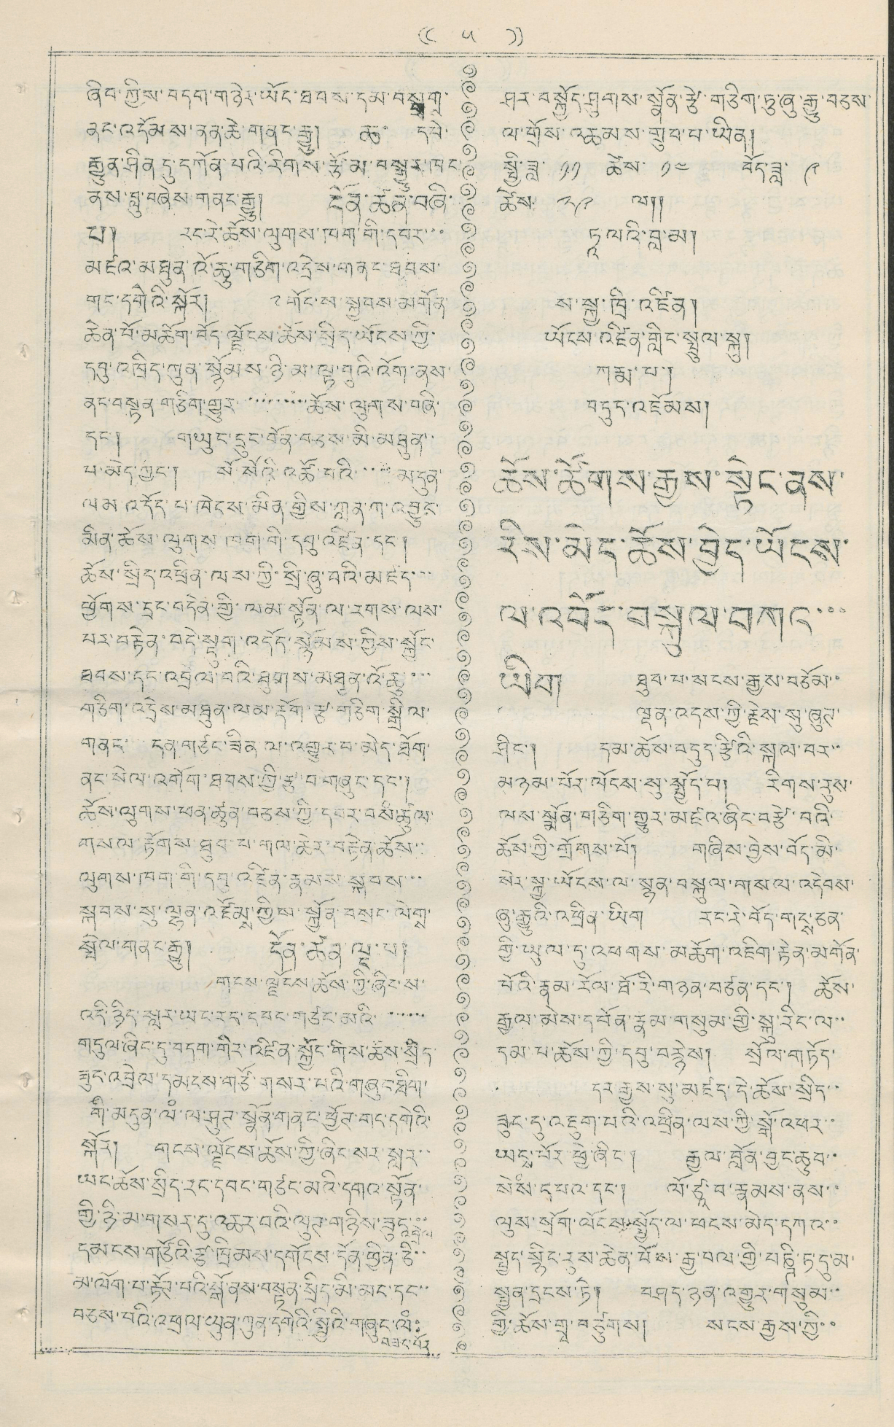(( ༥ ))
ཞིབ་ཀྱིས་བདག་གཉེར་ཡོང་ཐབས་དམ་བསྒྲག་
ནང་འདོམས་ནན་ཆེ་གནང་རྒྱུ། ཆ་ དཔེ་
རྒྱུན་ཤིན དུ་དཀོན་པའི་རིགས་རྩོམ་བསྒྱུར་ཁང་
ནས་བླུ་བཞེས་གནང་རྒྱུ། དོན་ཚན་བཞི་
པ། རང་རེ་ཆོས་ལུགས་ཁག་གི་དབར་་་
མཛའ་མཐུན་འོ་ཆུ་གཅིག་འདྲེས་གནང་ཐབས་
གང་དགེའི་སྐོར། ༸གོང་ས་སྐྱབས་མགོན་
ཆེན་པོ་མཆོག་བོད་ལྗོངས་ཆོས་སྲིད་ཡོངས་ཀྱི་
དབུ་འཁྲིད་ཀུན་སྙོམས་ཉི་མ་ལྟ་བུའི་འོག་ནས་
ནང་བསྟན གཅིག་གྱུར་་་་་་་་་་་ཆོས་ལུགས་བཞི་
དང་། གཡུང་དྲུང་བོན་བཅས་མི་མཐུན་་
པ་མེད་ཀྱང་། སོ་སོའི་འཚོ་བའི་་་་མདུན་
ལམ འདོད་པ་ཁེངས་མིན་གྱིས་ཀླན་ཀ་འབྱུང་
མིན་ཆོས་ལུགས་ཁག་གི་དབུ་འཛིན་དང་།
ཆོས་སྲིད་འཕྲིན་ལས་ཀྱི་སྲི་ཞུ་བའི་མཛད་་་
ཕྱོགས་དྲང་བདེན་གྱི་ལམ་སྟོན་ལ་རགས་ལས་
པར་བརྟེན་བདེ་སྡུག་འདོད་སྙོམས་ཀྱིས་སྐྱོང་
ཐབས་དང་འབྲེལ་བའི་ཐུགས་མཐུན་འོཆུ་་་
གཅིག་འདྲེས་མཐུན་ལམ་རྡོག་རྩ་གཅིག་སྒྲིལ་
གནང་དན་གཙང་ཟིན་ལ་འགྱུར་བ་མེད་ཐོག་
ནང་སེལ་འགོག་ཐབས་ཀྱི་རྩ་བ་གཞུང་དང་།
ཆོས་ལུགས་ཕན་ཚུན་བཅས་ཀྱི་དབར་བས་ཚུལ་
གསལ་རྟོགས་ཐུབ་པ་གལ་ཆེར་བརྟེན་ཆོས་་
ལུགས་ཁག་གི་དབུ་འཛིན་རྣམས་སྐབས་་་
སྐབས་སུ་ལྷན་འཛོམ་གྱིབ་སྐྱོན་བསྲང་ལེགྶ་
སྤེལ་གནང་རྒྱུ། དོན་ཚན་ལྔ་པ།
གངས་ལྗོངས་ཆོས་ཀྱི་ཞིང་ས་
འདི་ཉིད་སླར་ཡང་རང་དབང་གྩང་མའི་་་་་་
གདུལ་ཞིང་དུ་བདག་གིར་འཛིན་སྐྱོང་གིས་ཆོས་སྲིད
ཟུང་འབྲེལ་དམངས་གཙོ་གསྲ་པའི་གཞུང་ཐིག་
གི་མདུན་ལཾ་ལ་ཤུཊ་སྣོན་གནང་ཕྱོཊ་གང་དགེའི་
སྐོར། གངས་ལྗོངས་ཆོས་ཀྱི་ཞིང་ས་སླར་་
ཡང་ཆོས་སྲིད་རང་དབང་གཙང་མའི་དགའ་སྟོན་
གྱི་ཉིམ་གསར་དུ་མཆར་བའི་ལུཊ་གཉིས་ཟུང་བ
རླེབས་
དམངས་གཙོའི་རྩ་ཁྲིམས་དགོངས་དོན་ཕྱིན་ཅི་་
མ་ལོག་པ་རྟོཊ་པའི་སྒོ་ནས་བསྟན་སྲིད་མི་མང་དང་་
བཅས་པའི་འཕྲལ་ཡུན་ཀུན་དགེའི་སྤྱིའི་གཞུང་ལཾ
བཟང་པོར
ཤར་བསྐྱོད་ཤུགས་སྣོན་རྩེ་གཅིག་ཏུ་ཞུ་རྒྱུ་བཅས་
ལ་གྲོས་འཆམས་གྲུབ་པ་ཡིན།
སྤྱི་ཟླ་ ༡༡ ཚེས་ ༡༤ བོད་ཟླ་ ༩
ཚེས ༢༩ ལ།།
ཏཱ་ལའི་བླ་མ།
ས་སྐྱ་ཁྲི་འཛིན།
ཡོངས་འཛིན་གླིང་སྤྲུལ་སྐུ།
ཀརྨ་པ་།
བདུད་འཇམས།
ཆོས་ཚོགས་རྒྱས་སྟེང་ནས་
རིས་མིང་ཆོས་བྱེད་ཡོངས་
ལ་འབོར་བསྐུལ་བཀའ་
ཡིག
ཐུས་པ་སངས་རྒྱས་བཅོལ་་
བོན་འདས་ཀྱི་རེས་ལས་
ཤིང། དམ་ཆོས་བདུད་རྩིའི་སྐལ་བར་་
མཉམ་པོར་ལོངས་སུ་སྤྱོད་པ། རིགས་རུས་
ལས་སྨོན་གཅིག་གྱུར་མཛའ་ཞིང་བརྩེ་བའི་
ཆོས་ཀྱི་གྲོགས་པོ། གཞིས་བྱེས་བོད་མི་
སེར་སྐྱ་ཡོངས་ལ་སྙན་བསྐུལ་གསལ་འདེབས་
ཞུ་རྒྱུའི་འཕྲིན་ཡིག རང་རེ་བོད་གངྶ་ཅན་
གྱི་ཡུལ་དུ་འཕགས་མཆོག་འཇིག་རྟེན་མགོན་
བོའི་རྣམ་རོལ་ཐོ་རི་གཉན་བཙན་དང་། ཆོས་
རྒྱལ་མེས་དཔོན་རྣམ་གསུམ་གྱི་སྐུ་རིང་ལ་་
དམ་པ་ཆོས་ཀྱི་དབུ་བརྙེས། སྲོལ་གཏོད་
དར་རྒྱས་སུ་མཛད་དེ་ཆོས་སྲིད་་
ཟུང་དུ་འཐུག་པའི་འཕྲིན་ལས་ཀྱི་སྒོ་འཕར་་
ཡངྶ་པོར་ཕྱེ་ཞིང་། རྒྱལ་བློན་བྱང་ཆུབ་་
སེཾས་དཔའ་དང་། ལོ་ཙཱ་བ་རྣམས་ནས་་
ལུས་སྲོག་ལོངས་སྤྱོད་ལ་ཕངས་མེད་དཀའ་་
སྤྱད་སྙིང་རུས་ཆེན་པོས་རྒྱ་བལ་གྱི་པཎྜི་ཏ་དུ་མ་
སྤྱན་དྲངས་ཏེ། བཤད་ཉན་འགྱུར་གསུམ་་
གྱི་ཆོས་གྲ་བཙུགས། སངས་རྒྱས་ཀྱི་་
